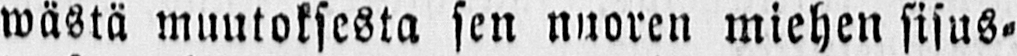wästä muutoksesta sen nuoren miehen sisus-
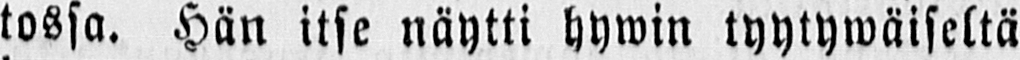tassa. Hän itse näytti hywin tyytywäiseltä
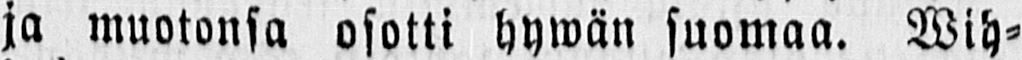ja muotonsa osotti hywän suomaa. Wih-
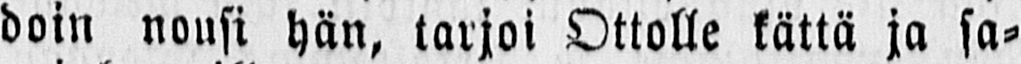doin nousi hän, tarjoi Ottolle kättä ja sa-
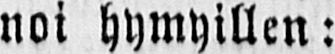noi hymyillen:
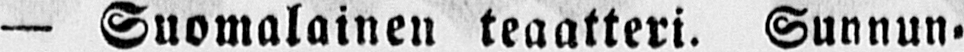— Suomalainen teaatteri. Sunnun-
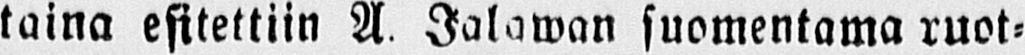taina esitettiin A. Jalawan suomentama ruot-
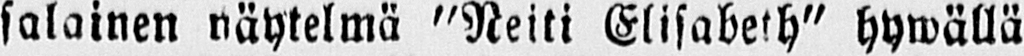salainen näytelmä "Neiti Elisabeth" hywällä
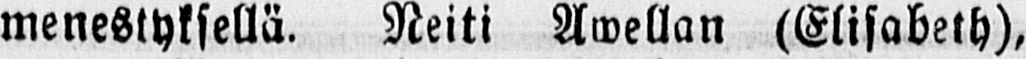menestyksellä. Neiti Awellan (Elisabeth),
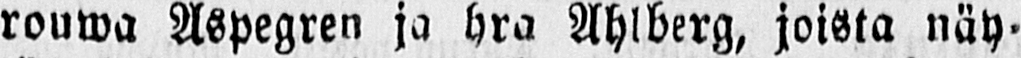rouwa Aspegren ja hra Ahlberg, joista näy-
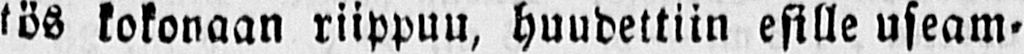tös kokonaan riippuu, huudettiin esille useam-
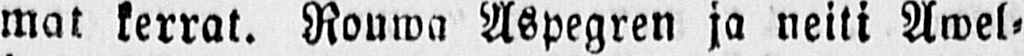mat kerrat. Rouwa Aspegren ja neiti Awel-
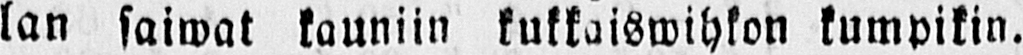lan saiwat kauniin kukkaiswihkon kumpikin.
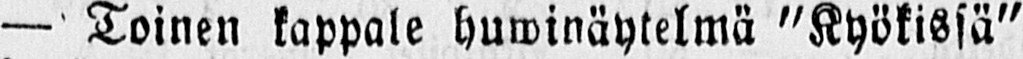— Toinen kappale huwinäytelmä "Kyökissä"
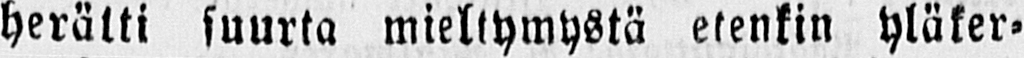herätti suurta mieltymystä etenkin yläker-
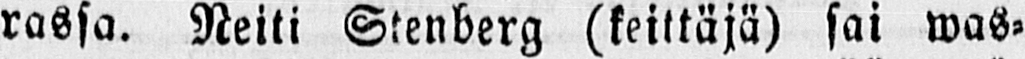rassa. Neiti Stenberg (keittäjä) sai was-
